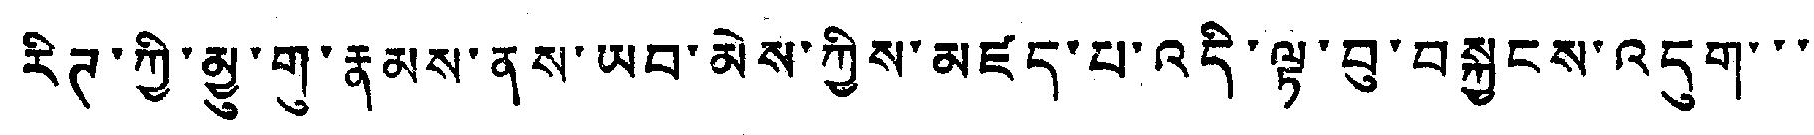རིཊ་ཀྱི་མྱུ་གུ་རྣམས་ནས་ཡབ་མེས་ཀྱིས་མཛད་པ་འདི་ལྟ་བུ་བསྐྱངས་འདུག་་་
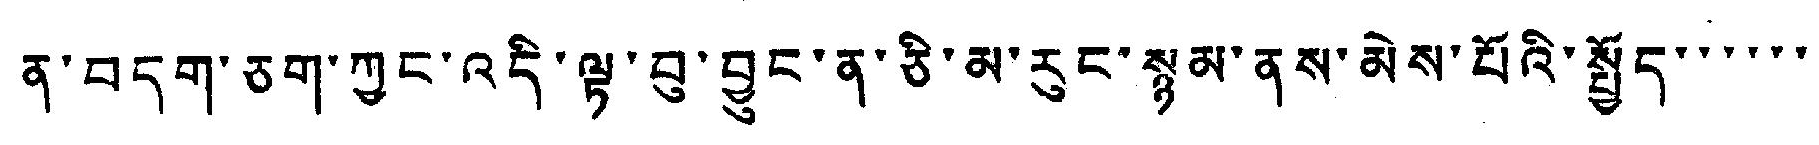ན་བདག་ཅག་ཀྱང་འདི་ལྟ་བུ་བྱུང་ན་ཅི་མ་རུང་སྙམ་ནས་མེས་པོའི་སྤྱོད་་་་་་
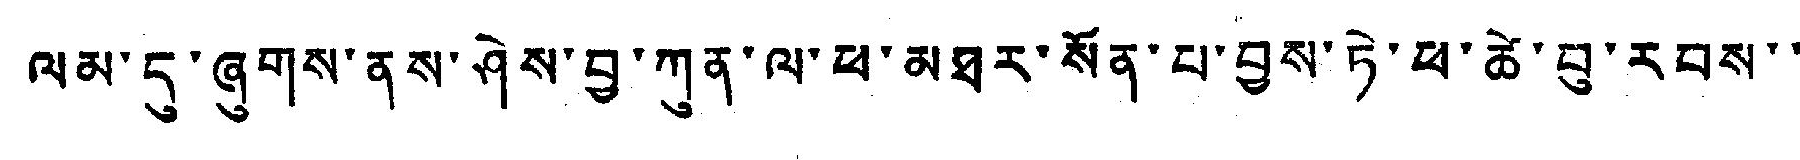ལམ་དུ་ཞུགས་ནས་ཤེས་བྱ་ཀུན་ལ་ཕ་མཐར་སོན་པ་བྱས་ཏེ་ཕ་ཚེ་བུ་རབས་་
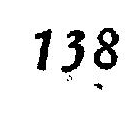138
